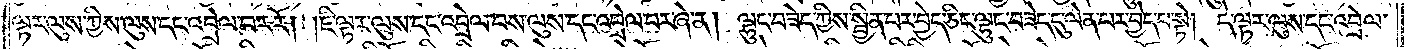ལྟར་ལུས་ཀྱིས་ལུས་དང་འབྲེལ་བར་རོ། །ཇི་ལྟར་ལུས་དང་འབྲེལ་བས་ལུས་དང་འབྲེལ་བར་ཞེ་ན། ལྷུང་བཟེད་ཀྱིས་སྦྱིན་པར་བྱེད་ཅིང་ལྷུང་བཟེད་དུ་ལེན་པར་བྱེད་པ་སྟེ། དེ་ལྟར་ལུས་དང་འབྲེལ་
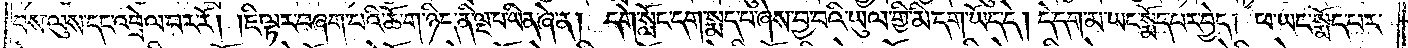བས་ལུས་དང་འབྲེལ་བར་རོ། །ཇི་ལྟར་བཞག་པའི་ཆོ་ག་ཉིད་ནི་ལྔ་པ་ཡིན་ཞེ་ན། དགེ་སློང་དག་སྨད་པ་ཞེས་བྱ་བའི་ཡུལ་གྱི་མི་དག་ཡོད་དེ། དེ་དག་མ་ཡང་སྨོད་པར་བྱེད། ཕ་ཡང་སྨོད་པར་
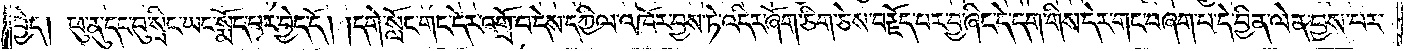བྱེད། ཕུ་ནུ་དང་བུ་སྲིང་ཡང་སྨོད་པར་བྱེད་དོ། །དགེ་སློང་གང་དེར་འགྲོ་བ་དེས་དཀྱིལ་འཁོར་བྱས་ཏེ་འདིར་ཞོག་ཅིག་ཅེས་བརྗོད་པར་བྱ་ཞིང་དེ་དག་གིས་དེར་གང་བཞག་པ་དེ་བྱིན་ལེན་བྱས་པར་
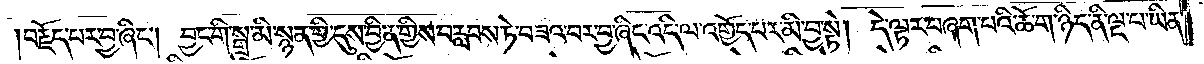བརྗོད་པར་བྱ་ཞིང༌། བྱང་གི་སྒྲ་མི་སྙན་གྱི་དུས་བྱིན་གྱིས་བརླབས་ཏེ་བཟའ་བར་བྱ་ཞིང་འདི་ལ་འགྱོད་པར་མི་བྱ་སྟེ། དེ་ལྟར་བཞག་པའི་ཆོ་ག་ཉིད་ནི་ལྔ་པ་ཡིན་
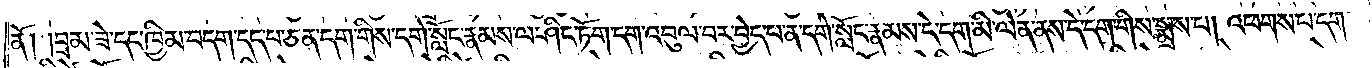ནོ། །བྲམ་ཟེ་དང་ཁྱིམ་བདག་དད་པ་ཅན་དག་གིས་དགེ་སློང་རྣམས་ལ་ཤིང་ཏོག་དག་འབུལ་བར་བྱེད་པ་ན་དགེ་སློང་རྣམས་དེ་དག་མི་ལེན་ནས་དེ་དག་གིས་སྨྲས་པ། འཕགས་པ་དག་
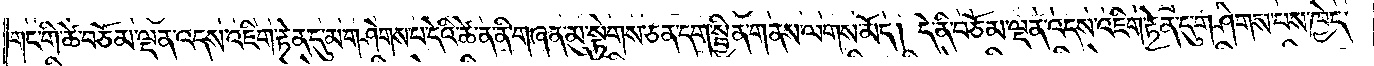གང་གི་ཚེ་བཅོམ་ལྡན་འདས་འཇིག་རྟེན་དུ་མ་གཤེགས་པ་དེའི་ཚེ་ན་ནི་གཞན་མུ་སྟེགས་ཅན་དག་སྦྱིན་གནས་ལགས་མོད། དེ་ནི་བཅོམ་ལྡན་འདས་འཇིག་རྟེན་དུ་གཤེགས་པས་ཁྱེད་
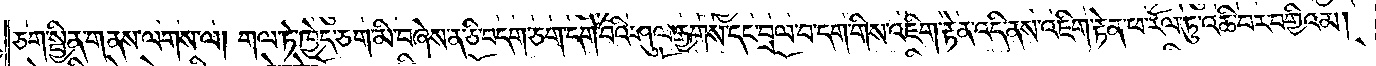ཅག་སྦྱིན་གནས་ལགས་ལ། གལ་ཏེ་ཁྱེད་ཅག་མི་བཞེས་ན་ཅི་བདག་ཅག་དགེ་བའི་ཤུལ་རྒྱགས་དང་བྲལ་བ་དག་གིས་འཇིག་རྟེན་འདི་ནས་འཇིག་རྟེན་ཕ་རོལ་ཏུ་འཆི་བར་བགྱིའམ།
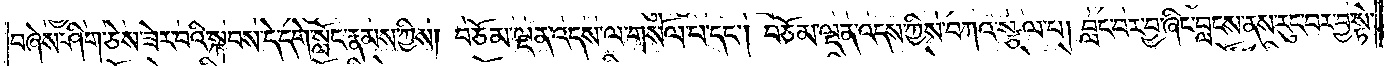བཞེས་ཤིག་ཅེས་ཟེར་བའི་སྐབས་དེ་དགེ་སློང་རྣམས་ཀྱིས། བཅོམ་ལྡན་འདས་ལ་གསོལ་པ་དང༌། བཅོམ་ལྡན་འདས་ཀྱིས་བཀའ་སྩལ་པ། བླང་བར་བྱ་ཞིང་བླངས་ནས་རུང་བར་བྱ་སྟེ་
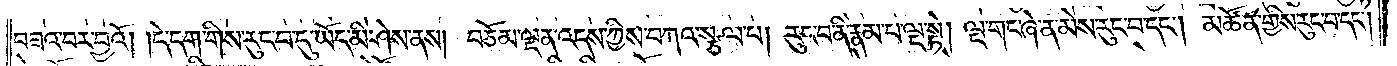བཟའ་བར་བྱའོ། །དེ་དག་གིས་རུང་བ་དུ་ཡོད་མི་ཤེས་ནས། བཅོམ་ལྡན་འདས་ཀྱིས་བཀའ་སྩལ་པ། རུང་བ་ནི་རྣམ་པ་ལྔ་སྟེ། ལྔ་གང་ཞེ་ན་མེས་རུང་བ་དང༌། མཚོན་གྱིས་རུང་བ་དང༌།
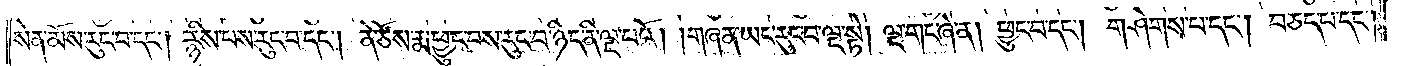སེན་མོས་རུང་བ་དང༌། རྙིས་པས་རུང་བ་དང༌། ནེ་ཙོས་རྨ་ཕྱུང་བས་རུང་བ་ཉིད་ནི་ལྔ་པའོ། །གཞན་ཡང་རུང་བ་ལྔ་སྟེ། ལྔ་གང་ཞེ་ན། ཕྱུང་བ་དང༌། གཤེགས་པ་དང༌། བཅད་པ་དང༌།
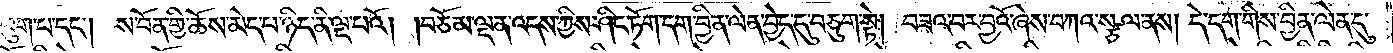ཕུག་པ་དང༌། ས་བོན་གྱི་ཆོས་མེད་པ་ཉིད་ནི་ལྔ་པའོ། །བཅོམ་ལྡན་འདས་ཀྱིས་ཤིང་ཏོག་དག་བྱིན་ལེན་བྱེད་དུ་བཅུག་སྟེ། བཟའ་བར་བྱའོ་ཞེས་བཀའ་སྩལ་ནས། དེ་དག་གིས་བྱིན་ལེན་དུ་
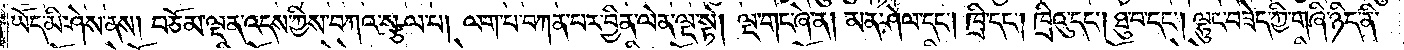ཡོད་མི་ཤེས་ནས། བཅོམ་ལྡན་འདས་ཀྱིས་བཀའ་སྩལ་པ། ལག་པ་བཀན་པར་བྱིན་ལེན་ལྔ་སྟེ། ལྔ་གང་ཞེ་ན། མན་ཤེལ་དང༌། ཁྲི་དང༌། ཁྲིའུ་དང༌། ཐུ་བ་དང༌། ལྷུང་བཟེད་ཀྱི་གཞི་ཉིད་ནི་
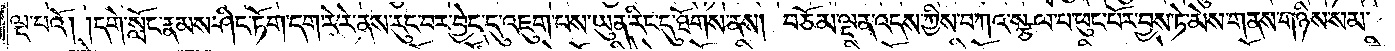ལྔ་པའོ། །དགེ་སློང་རྣམས་ཤིང་ཏོག་དག་རེ་རེ་ནས་རུང་བར་བྱེད་དུ་འཇུག་པས་ཡུན་རིང་དུ་ཐོགས་ནས། བཅོམ་ལྡན་འདས་ཀྱིས་བཀའ་སྩལ་པ་ཕུང་པོར་བྱས་ཏེ་མེས་གནས་གཉིས་སམ་
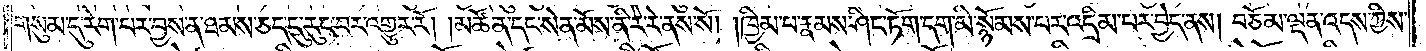གསུམ་དུ་རེག་པར་བྱས་ན་ཐམས་ཅད་དུ་རུང་བར་འགྱུར་རོ། །མཚོན་དང་སེན་མོས་ནི་རེ་རེ་ནས་སོ། །ཁྱིམ་པ་རྣམས་ཤིང་ཏོག་དག་མི་སྙོམས་པར་འདྲིམ་པར་བྱེད་ནས། བཅོམ་ལྡན་འདས་ཀྱིས་
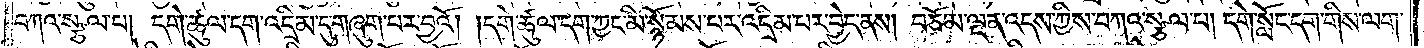བཀའ་སྩལ་པ། དགེ་ཚུལ་དག་འདྲིམ་དུ་གཞུག་པར་བྱའོ། །དགེ་ཚུལ་དག་ཀྱང་མི་སྙོམས་པར་འདྲིམ་པར་བྱེད་ནས། བཅོམ་ལྡན་འདས་ཀྱིས་བཀའ་སྩལ་པ། དགེ་སློང་དག་གིས་ལག་
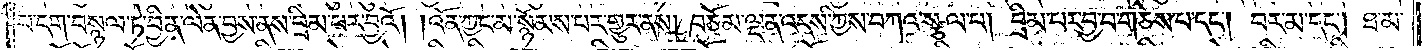པ་དག་བསྙལ་ཏེ་བྱིན་ལེན་བྱས་ནས་བྲིམ་པར་བྱའོ། །འོན་ཀྱང་མ་སྙོམས་པར་གྱུར་ནས། བཅོམ་ལྡན་འདས་ཀྱིས་བཀའ་སྩལ་པ། བྲིམ་པར་བྱ་བ་གཅེས་པ་དང༌། བར་མ་དང༌། ཐ་མ་
